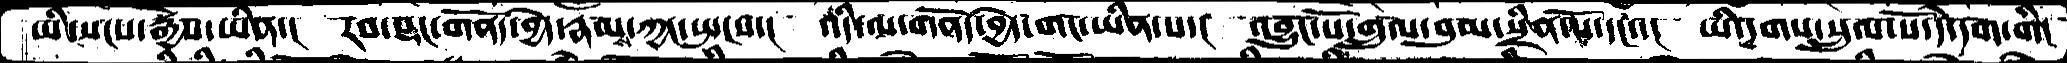ཡི་སངས་རྒྱས་ཡིན་།  རབ་སྡང་གནོད་བྱེད་རྣམས་ཀྱང་སྤངས་།  འདི་ལ་གནོད་བྱེད་གང་ཡིན་པ་།  འབྱུང་པོ་གྲུལ་བུམ་སྲིན་པོ་དང་་།  ཡི་དྭགས་སྲུལ་པོ་དེ་དག་གི།
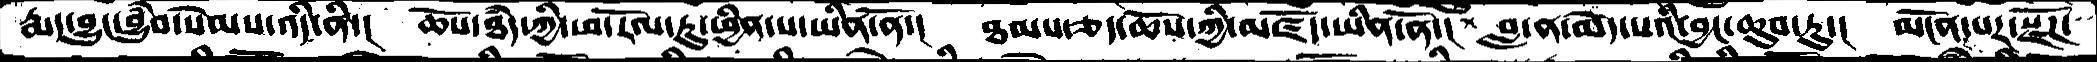རྨད་བྱུང་བྱུཾབ་སེམས་འདི་ནི་།  ཆོས་ཐཾད་ཀྱི་ཕ་རོལ་ཏུ་ཕྱིན་པ་ཡིན་ནོ་།  ཐམས་ཅད་ཆོས་ཀྱི་མཛོད་ཡིན་ནོ་།  བླ་ན་མེད་པའི་བྱང་ཆུབ་ཏུ་།  མངོན་པར་སྫོཌ་
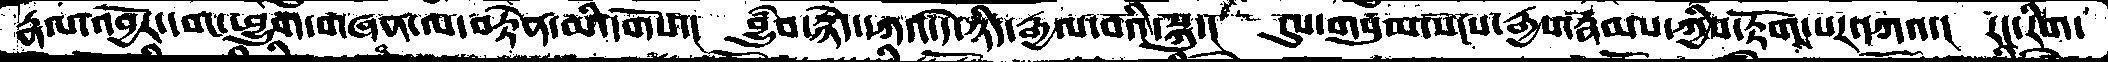རྣལ་འབྱོར་དབང་ཕྱུག་གཞན་ལ་བརྟེན་མི་དགོས་།  བྱུཾབ་རྙེད་དཀའ་དེ་ཉིད་རྒྱལ་བའི་སྐུ་།  དུས་གསུམ་སངས་རྒྱས་རྣམས་ཀྱིས་རྟོགས་པར་དཀའ་།  རང་རིག་
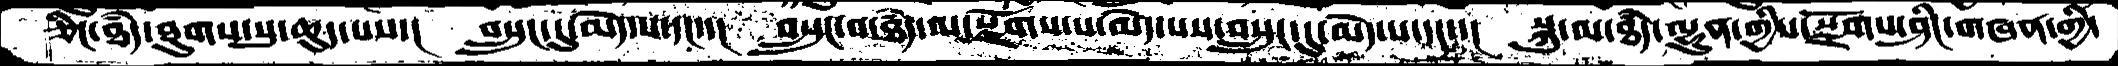ཅིང་ཐཾད་ཐུགས་སུ་ཆུད་པས་།  བསྲུང་དུ་མེད་པ་དང་་།  བསྲུང་བ་ཐཾད་ལ་སྫོགས་པ་མེད་པས་བསྲུང་དུ་མེད་པ་དང་་།  སྐུ་ལ་ཐཾད་ལྷུན་གྱིས་སྫོགས་ཤིང་གཞན་གྱི་
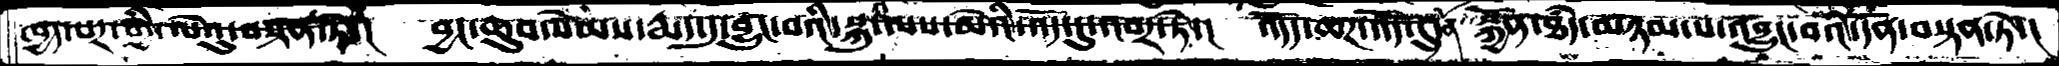ཁྱད་པར་གྱི་ལེའུ་བསྟན་ཏེ་།  བྱང་ཆུབ་སེམས་རྨད་དུ་བྱུང་བའི་སྐུ་ལས་མེའི་འོད་དུ་འབར་ཏེ་།  འདོད་ཆཌ་འོད་དུ་ནོ་སྐྱོན་ཐདཾ་མཉམ་པ་འབྱུང་བའི་དོན་བསྟན་ཏེ་།
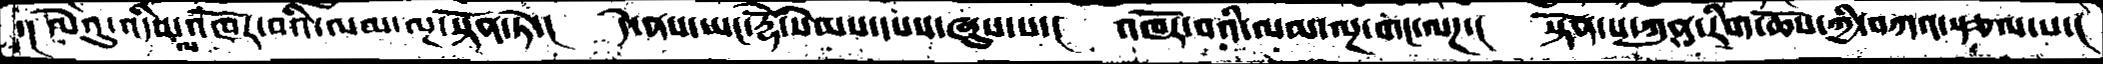་།ལེའུ་འདིས་ལ་འཁོར་བའི་ལམ་ལྔ་སྟོན་ཏེ་།  དེ་ནས་ཡང་རྡོེ་སེམས་དཔས་ཞུས་པ་།  འཁོར་བའི་ལམ་ལྔ་གང་ལཌ་།  སྟོན་པ་ཀུན་རིག་ཆོས་ཀྱི་བཀའ་སྩལ་པ་།
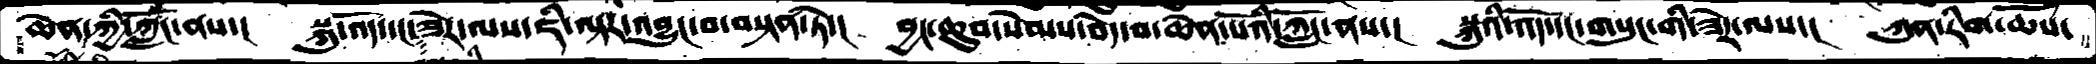ཆེན་ཀྱི་ཀློང་ནས་།  སྐུ་འོད་དང་ཟེར་ལས་ཇི་ལྟར་འབྱུང་བ་བསྟན་ཏེ་།  བྱང་ཆུབ་སེམས་བདེ་བ་ཆེན་པོའི་ཀློང་ནས་།  སྐུའི་འོད་དང་གསུང་གི་ཟེར་ལས་།  ཀུན་རིག་ཆོས་
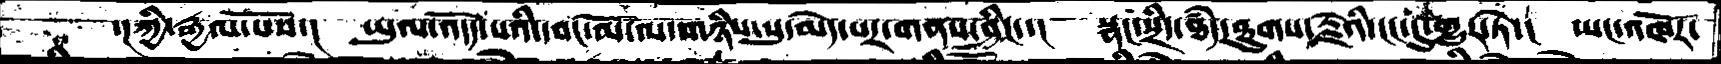་།ཀྱི་རྒྱལ་པོས་།  ཡུལ་འདོད་པའི་དབང་མོ་ལ་གཉིས་སུ་མེད་པར་གནས་ཤིང་་།  སྣང་སྲིད་ཐདཾ་ཐུགས་རྗེའི་ངང་དུ་གྱུར་ཏེ་།  ཡང་འཁོར་
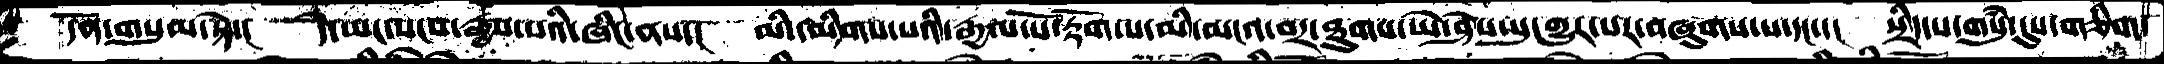དོན་གསུམ་སྟེ་།  དེ་ཡང་སངས་རྒྱས་པའི་ཞིང་ནས་།  མི་དམིགས་པའི་རྒྱལ་པོ་རྟོག་པ་མི་མངའ་བར་ཐུགས་ཡེ་ཤེས་སུ་གྱུར་པར་བཞུགས་པ་དང་་།  སྲིད་པ་གསུཾ་དུས་གཅིག་
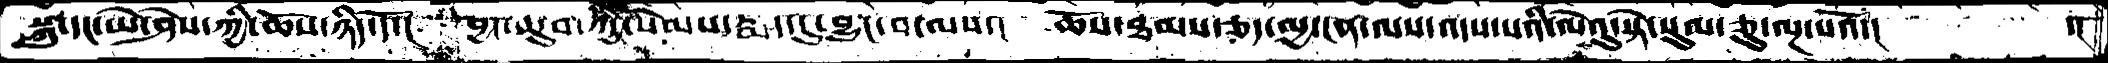སྐུ་དང་ཡེ་ཤེས་ཀྱི་ཆོས་ཉིད་དོ་།  བྱང་ཆུབ་ཀྱི་སེམས་རྨད་དུ་བྱུང་བ་ལས་།  ཆོས་ཐམས་ཅད་མྱ་ངན་ལས་འདས་པའི་ལེའུ་སྟེ་སུམ་ཅུ་ལྔ་པའོ་།   ་།
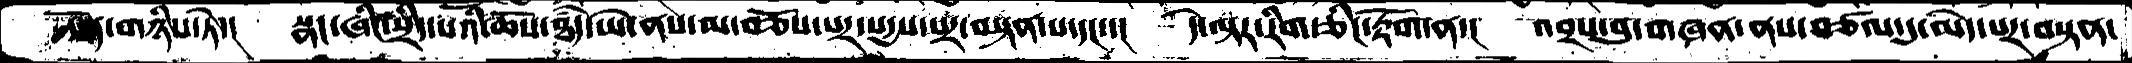དོན་གཉིས་ཏེ་།  སྣང་ཞིང་སྲིད་པའི་ཆོས་ཐདཾ་ཡེ་ནས་མ་བཅོས་པར་སདྱས་པར་བསྟན་པ་དང་་།  དེ་ལྟར་རིག་ཅིང་རྟོག་ན་།  འབྲས་བུ་གཞན་ནས་བཙལ་དུ་མེད་པར་བསྟན་
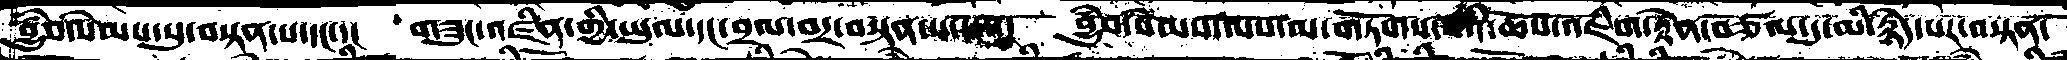བྱུཾབ་སེམས་སུ་བསྟན་པ་དང་་།  གཟུང་འཛིན་གྱི་ཡུལ་དང་བྲལ་བར་བསྟན་པ་ལས་།  བྱུཾབ་སེམས་ལས་མ་གཏོགས་པའི་ཆོས་འཇིག་རྟེན་བཙལ་དུ་མི་རྙེད་པར་བསྟན་
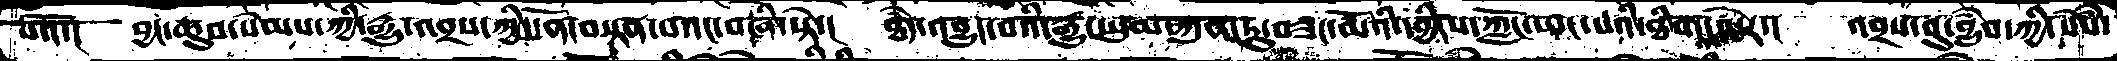པའོ་།  བྱང་ཆུབ་སེམས་ཀྱི་རྒྱུ་འབྲས་ཀྱི་དོན་བསྟན་པ་འང་བཞི་སྟེ་།  ཐདཾ་འབྱུང་བའི་རྒྱུ་ཡུམ་ཀུན་ཏུ་བཟང་མོའི་དབྱིངས་ཀློང་ཡང་པའི་ཐིག་ལེར་།   འབྲས་བུ་བྱུཾབ་ཀྱི་སེཾས་
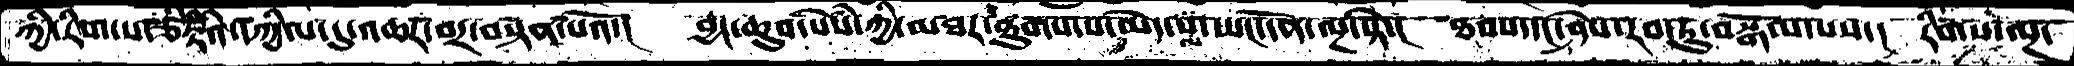ཀྱི་རིག་པ་ཙིཏྟིའི་དཀྱིལ་དུ་འཆར་བར་བསྟན་པའོ་།  བྱང་ཆུབ་སེཾས་ཀྱི་མཐར་ཐུགས་པ་མེད་པ་ལ་ཡང་དོན་ལྔ་སྟེ་།  ཐབས་དང་ཤེས་རབ་ཏུ་བསྒོམ་པས་།  རིགས་ལྔ་
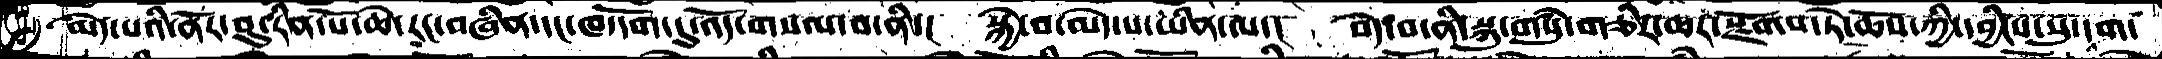མེད་པའི་ནོར་བུ་རིན་པོ་ཆེ་རང་བཞིན་དང་ཁ་དོག་འོད་གསལ་བ་ནི་།  སྐྱེ་བ་མེད་པ་ཡིན་ལ་།  བདེ་བ་ནི་སྐུ་གསུཾ་གཅིར་ཆར་སྫོགས་ཏེ་ཆོས་ཀྱི་དབྱིངས་སུ་དག་
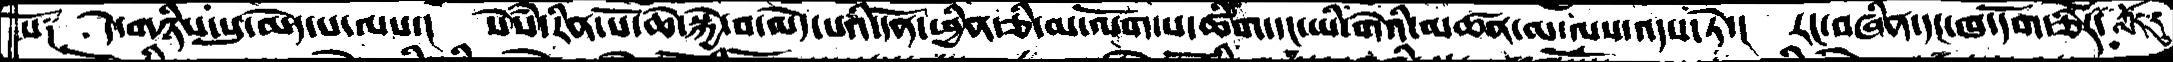སོ༑  དེ་གཉིས་སུ་མེད་པ་ལས་།  སེཾས་རིན་པོ་ཆེ་སྐྱེ་བ་མེད་པའི་དོན་ཕྱིན་ཅི་མ་ལོག་པ་ཚིག་དང་ཡི་གེའི་མཚན་མ་ལས་འདས་ཏེ་།  རང་བཞིན་དང་ཁ་དོག་ཅིར་ཀློང་དུ་
